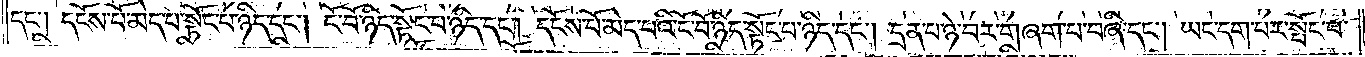དང༌། དངོས་པོ་མེད་པ་སྟོང་པ་ཉིད་དང༌། ངོ་བོ་ཉིད་སྟོང་པ་ཉིད་དང༌། དངོས་པོ་མེད་པའི་ངོ་བོ་ཉིད་སྟོང་པ་ཉིད་དང༌། དྲན་པ་ཉེ་བར་བཞག་པ་བཞི་དང༌། ཡང་དག་པར་སྤོང་བ་
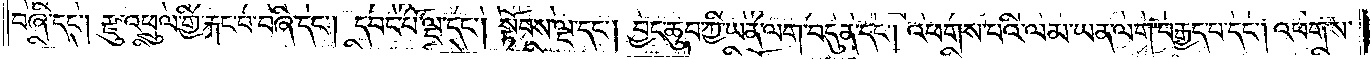བཞི་དང༌། རྫུ་འཕྲུལ་གྱི་རྐང་པ་བཞི་དང༌། དབང་པོ་ལྔ་དང༌། སྟོབས་ལྔ་དང༌། བྱང་ཆུབ་ཀྱི་ཡན་ལག་བདུན་དང༌། འཕགས་པའི་ལམ་ཡན་ལག་བརྒྱད་པ་དང༌། འཕགས་
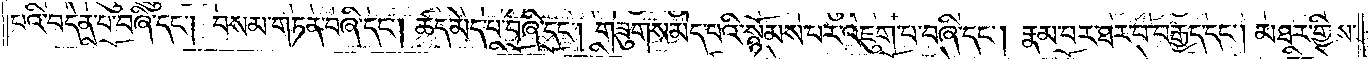པའི་བདེན་པ་བཞི་དང༌། བསམ་གཏན་བཞི་དང༌། ཚད་མེད་པ་བཞི་དང༌། གཟུགས་མེད་པའི་སྙོམས་པར་འཇུག་པ་བཞི་དང༌། རྣམ་པར་ཐར་པ་བརྒྱད་དང༌། མཐར་གྱིས་
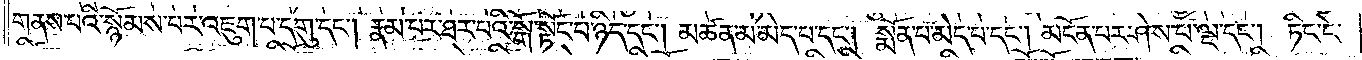གནས་པའི་སྙོམས་པར་འཇུག་པ་དགུ་དང༌། རྣམ་པར་ཐར་པའི་སྒོ་སྟོང་པ་ཉིད་དང༌། མཚན་མ་མེད་པ་དང༌། སྨོན་པ་མེད་པ་དང༌། མངོན་པར་ཤེས་པ་ལྔ་དང༌། ཏིང་ངེ་
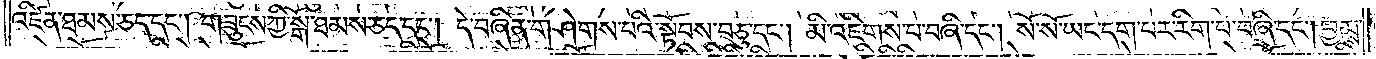འཛིན་ཐམས་ཅད་དང༌། གཟུངས་ཀྱི་སྒོ་ཐམས་ཅད་དང༌། དེ་བཞིན་གཤེགས་པའི་སྟོབས་བཅུ་དང༌། མི་འཇིགས་པ་བཞི་དང༌། སོ་སོ་ཡང་དག་པར་རིག་པ་བཞི་དང༌། བྱམས་
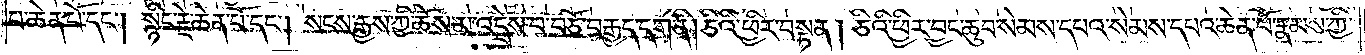པ་ཆེན་པོ་དང༌། སྙིང་རྗེ་ཆེན་པོ་དང༌། སངས་རྒྱས་ཀྱི་ཆོས་མ་འདྲེས་པ་བཅོ་བརྒྱད་དག་ནི། ཅིའི་ཕྱིར་བསྟན། ཅིའི་ཕྱིར་བྱང་ཆུབ་སེམས་དཔའ་སེམས་དཔའ་ཆེན་པོ་རྣམས་ཀྱི་
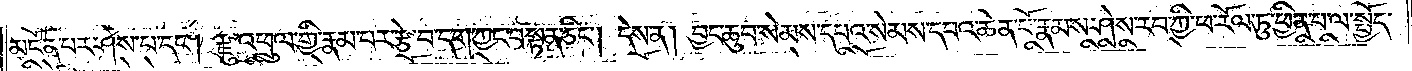མངོན་པར་ཤེས་པ་དང༌། རྫུ་འཕྲུལ་གྱི་རྣམ་པར་རྩེ་བ་དག་ཀྱང་བསྟན་ཅིང༌། དེས་ན། བྱང་ཆུབ་སེམས་དཔའ་སེམས་དཔའ་ཆེན་པོ་རྣམས་ཤེས་རབ་ཀྱི་ཕ་རོལ་ཏུ་ཕྱིན་པ་ལ་སྤྱོད་
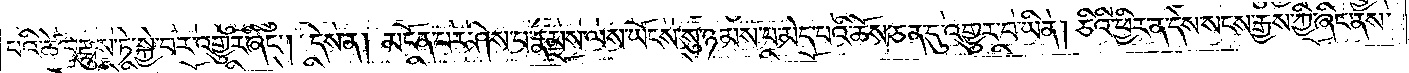པའི་ཚེ་བརྫུས་ཏེ་སྐྱེ་བར་འགྱུར་ཞིང༌། དེས་ན། མངོན་པར་ཤེས་པ་རྣམས་ལས་ཡོངས་སུ་ཉམས་པ་མེད་པའི་ཆོས་ཅན་དུ་འགྱུར་བ་ཡིན། ཅིའི་ཕྱིར་ན་དེས་སངས་རྒྱས་ཀྱི་ཞིང་ནས་
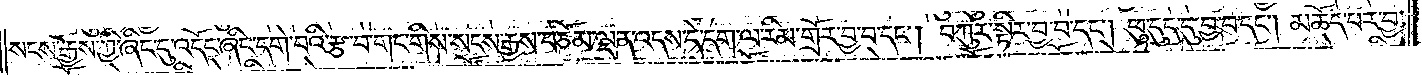སངས་རྒྱས་ཀྱི་ཞིང་དུ་འདོང་ཞིང་དགེ་བའི་རྩ་བ་གང་གིས་སངས་རྒྱས་བཅོམ་ལྡན་འདས་དེ་དག་ལ་རིམ་གྲོར་བྱ་བ་དང༌། བཀུར་སྟིར་བྱ་བ་དང༌། ཕུ་དུད་དུ་བྱ་བ་དང༌། མཆོད་པར་བྱ་
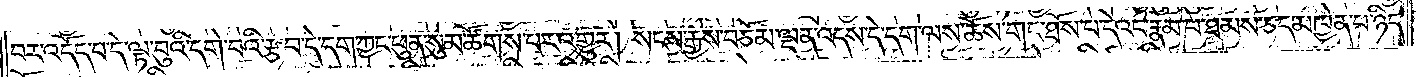བར་འདོད་པ་དེ་ལྟ་བུའི་དགེ་བའི་རྩ་བ་དེ་དག་ཀྱང་ཕུན་སུམ་ཚོགས་པར་འགྱུར། སངས་རྒྱས་བཅོམ་ལྡན་འདས་དེ་དག་ལས་ཆོས་གང་ཐོས་པ་དེའང་རྣམ་པ་ཐམས་ཅད་མཁྱེན་པ་ཉིད་
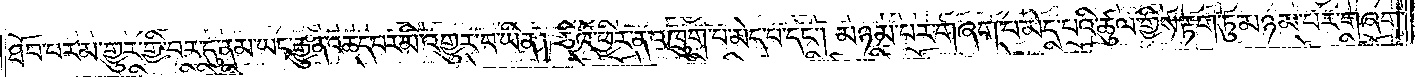ཐོབ་པར་མ་གྱུར་གྱི་བར་དུ་ནམ་ཡང་རྒྱུན་ཆད་བར་མི་འགྱུར་པ་ཡིན། ཅིའི་ཕྱིར་ན་འཁྲུག་པ་མེད་པ་དང༌། མཉམ་པར་བཞག་པ་མེད་པའི་ཚུལ་གྱིས་རྟག་ཏུ་མཉམ་པར་གཞག་
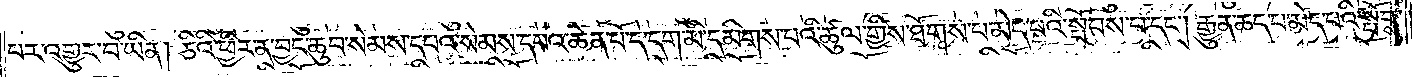པར་འགྱུར་བ་ཡིན། ཅིའི་ཕྱིར་ན་བྱང་ཆུབ་སེམས་དཔའ་སེམས་དཔའ་ཆེན་པོ་དེ་དག་མི་དམིགས་པའི་ཚུལ་གྱིས་ཐོགས་པ་མེད་པའི་སྤོབས་པ་དང༌། རྒྱུན་ཆད་པ་མེད་པའི་སྤོབས་
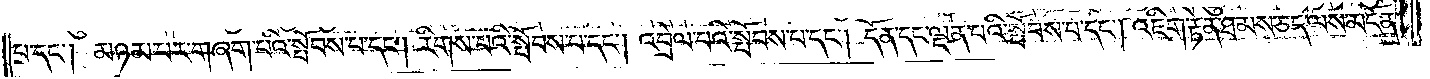པ་དང༌། མཉམ་པར་གཞག་པའི་སྤོབས་པ་དང༌། རིགས་པའི་སྤོབས་པ་དང༌། འབྲེལ་བའི་སྤོབས་པ་དང༌། དོན་དང་ལྡན་པའི་སྤོབས་པ་དང༌། འཇིག་རྟེན་ཐམས་ཅད་ལས་མངོན་
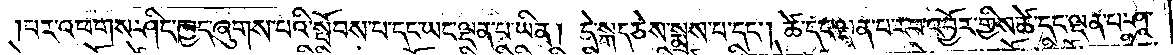པར་འཕགས་ཤིང་ཁྱད་ཞུགས་པའི་སྤོབས་པ་དང་ཡང་ལྡན་པ་ཡིན། དེ་སྐད་ཅེས་སྨྲས་པ་དང༌། ཚེ་དང་ལྡན་པ་རབ་འབྱོར་གྱིས་ཚེ་དང་ལྡན་པ་ཤཱ་
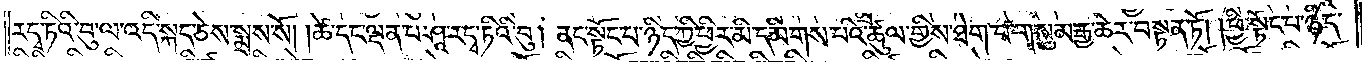ར་དྭ་ཏིའི་བུ་ལ་འདི་སྐད་ཅེས་སྨྲས་སོ། །ཚེ་དང་ལྡན་པ་ཤཱ་ར་དྭ་ཏིའི་བུ། ནང་སྟོང་པ་ཉིད་ཀྱི་ཕྱིར་མི་དམིགས་པའི་ཚུལ་གྱིས་ཐེག་པ་གསུམ་རྒྱ་ཆེར་བསྟན་ཏོ། །ཕྱི་སྟོང་པ་ཉིད་
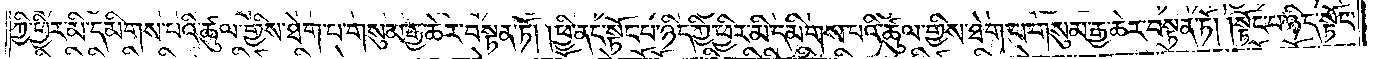ཀྱི་ཕྱིར་མི་དམིགས་པའི་ཚུལ་གྱིས་ཐེག་པ་གསུམ་རྒྱ་ཆེར་བསྟན་ཏོ། །ཕྱི་ནང་སྟོང་པ་ཉིད་ཀྱི་ཕྱིར་མི་དམིགས་པའི་ཚུལ་གྱིས་ཐེག་པ་གསུམ་རྒྱ་ཆེར་བསྟན་ཏོ། །སྟོང་པ་ཉིད་སྟོང་
